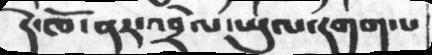དེ་ཁོ་ནར་འབྲེལ་ཡུལ་དགག་པ
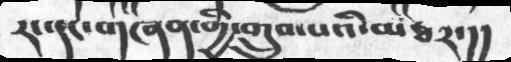རང་དང་གཞན་གྱི་གྲུབ་པའི་མཐར་།།
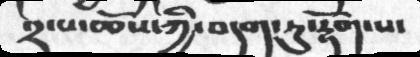༢་པ་ཆོས་ཀྱི་བདག་ཏུ་རྟོག་པ་
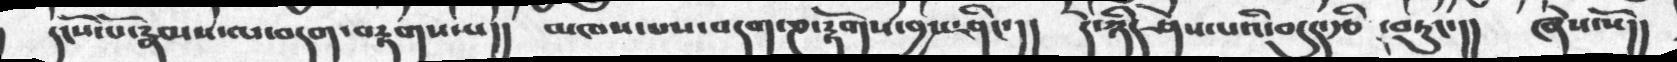དངོས་པོ་རྣམས་ལ་བདག་བརྟགས་པ།།   མཁས་པས་བདག་ཎ་རྟོགས་བྱས་ཤིང་།།  དེ་ཉིད་ཤེས་པའི་བདུད་རྩི ་བཏུང་།།  ཞེས་སོ།།
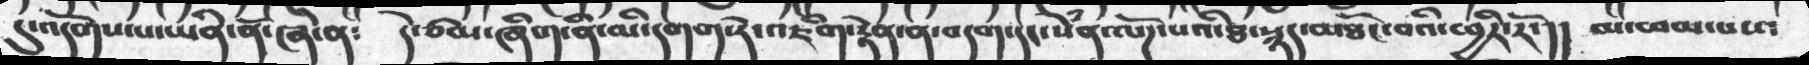དུ་འདོགས་པ་ཡིན་ནོ་ཞེ་ན༴   དེ་ཙམ་ཞིག་ནི་མི་དགག་ཏེ་འཇིག་རྟེན་ན་བདག་དང་སེཾན་ལོཌ་པའི་ཐ་སྙད་མཐོང་བའི་ཕྱིར་རོ་།།  མ་ཕམ་པས༴
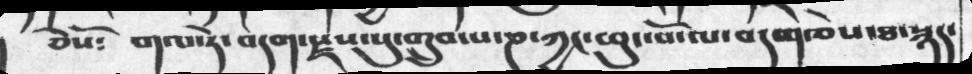ཅེསོ༴   གལ་ཏེ་བདག་རྫས་སུ་གྲུབ་པ་ཎ་ཀྱང་ཕུང་པོ་ལ་བདག་ཅེས་ཐ་སྙད་
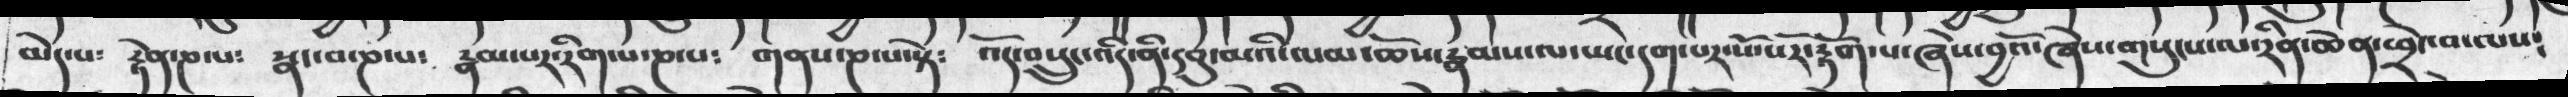མེད་པ༴  རྟེན་ཎ་པ༴  སྣང་བ་ཎ་པ༴  རྣམ་པར་རིག་པ་ཎ་པ༴   གནས་ཎ་པ་སྟེ༴  འོད་བསྲུང་འདི་ནི་དབུ་མའི་ལམ་ཆོས་རྣམས་ལ་ཡང་དག་པར་སོ་པར་རྟོག་པ་ཞེས་བྱའོ་ཞེས་གསུངས་ལ་རིན་ཆེན་ཕྲེང་བ་ལས༴
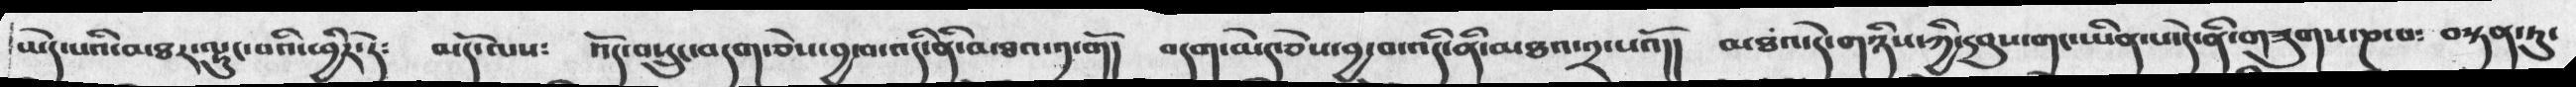ཡེད་པའི་མཐར་ལྟུང་བའི་ཕྱིར་དེ༴  མདོ་ལས༴  འོད་བསྲུང་བདག་ཅེས་བྱ་བ་འདི་ནི་མཐའ་༡་གོ།  བདག་མེད་ཅེས་བྱ་བ་འདི་ནི་མཐའ་༢་པའོ།།   མཐའ་དེ་གཉིས་ཀྱི་དབུས་གང་ཡིན་པ་དེ་ནི་གཟུགས་ཎ་བ༴  བསྟན་ཏུ་
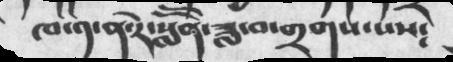ཁ་༡་ན་རེ་སློོན་ཟླ་བ་གྲགས་པས༴
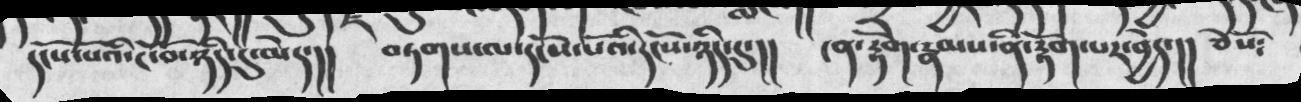དངོས་པོའི་ངོ་བོ་ཉིད་དུ་མེད་།།   བཏགས་ལ་དངོས་པོའི་དངོས་ཉིད་དུ་།།   ངན་རྟོག་རྣམས་ནི་རྟོག་པར་བྱེད་།།  ཅེསོ༴
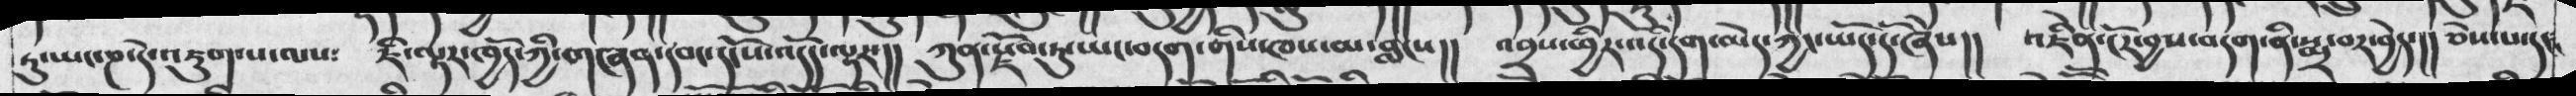ཏུ་ཡང་ཎ་དེ་འཇུག་པ་ལས༴  ཇི་ལྟར་ཁྱོད་ཀྱི་གཞན་དབང་དངོས་འདོད་ལྟར་།།  ཀུན་སྫོབ་ཏུ་ཡང་བདག་གིས་ཁས་མ་བླངས།།  འབྲས་ཕྱིར་འདི་དག་མེད་ཀྱང་ཡོད་དོ་ཞེས།།   འཇིེན་ངོར་བྱས་བདག་ནི་སྨྲ་བར་བྱེད།།   ཅེས་པ་དང་
